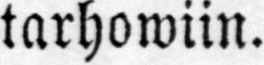tarhowiin.
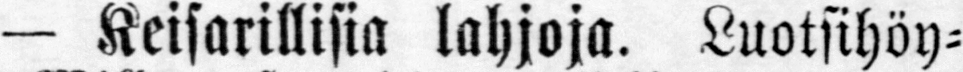— Keisarillisia lahjoja. Luotsihöy-
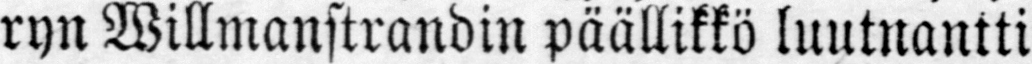ryn Willmanstrandin päällikkö luutnantti
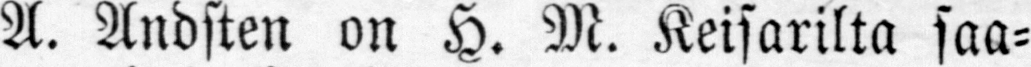A. Andsten on H. M. Keisarilta saa-
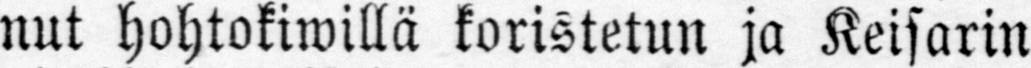nut hohtokiwillä koristetun ja Keisarin
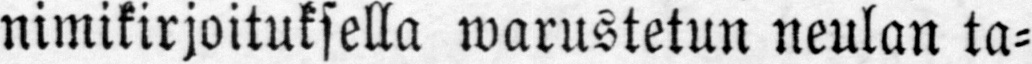nimikirjoituksella warustetun neulan ta-
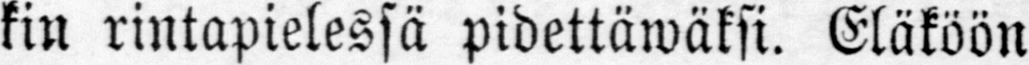kin rintapielessä pidettäwäksi. Eläköön
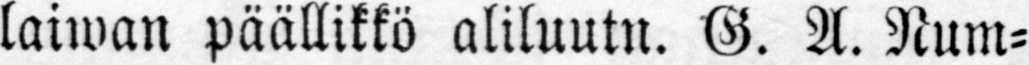laiwan päällikkö aliluutn. G. A. Num-
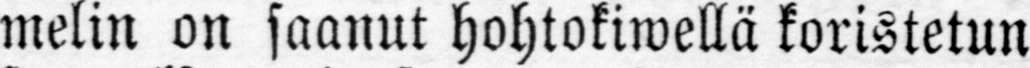melin on saanut hohtokiwellä koristetun
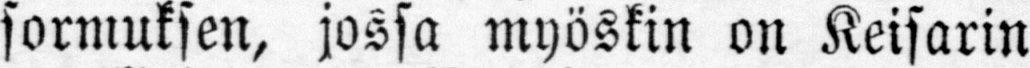sormuksen, jossa myöskin on Keisarin
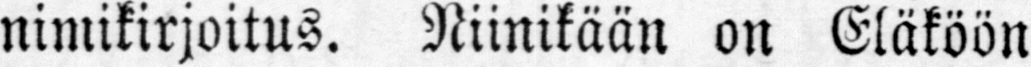nimikirjoitus. Niinikään on Eläköön
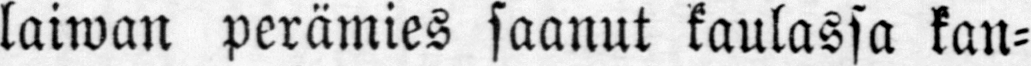laiwan perämies saanut kaulassa kan-
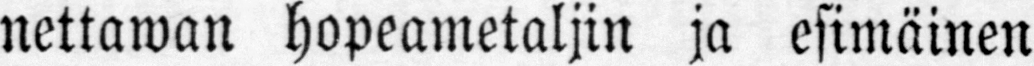nettawan hopeametaljin ja esimäinen
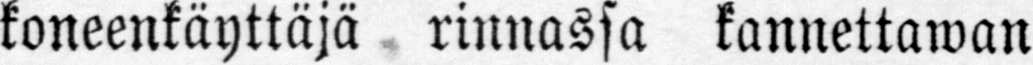koneenkäyttäjä rinnassa kannettawan
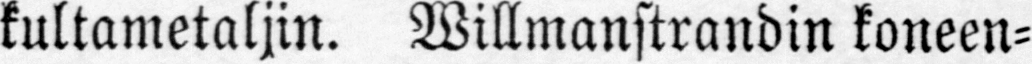kultametaljin. Willmanstrandin koneen-
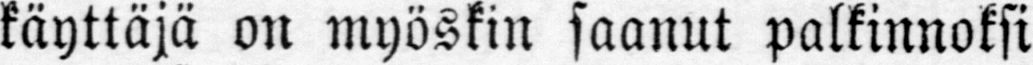käyttäjä on myöskin saanut palkinnoksi
